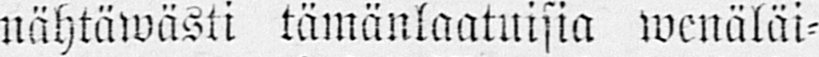nähtäwästi tämänlaatuisia wenäläi-
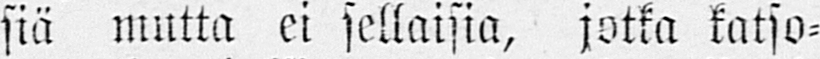siä mutta ei sellaisia, jotka katso-
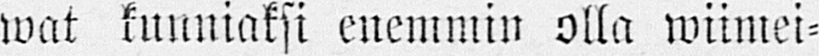wat kunniaksi enemmin olla wiimei-
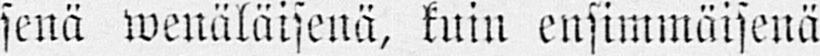senä wenäläisenä, kuin ensimmäisenä
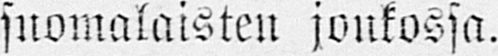suomalaisten j onkossa.
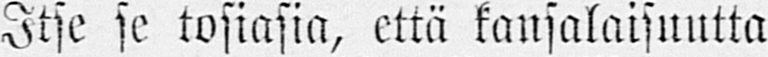Itse se tosiasia, että kansalaisuutta
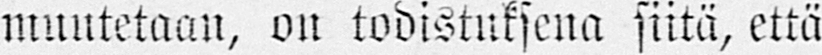muutetaan, on todistuksena siitä, että
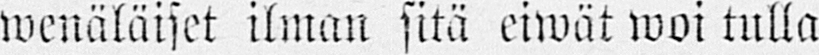wenäläiset ilman sitä eiwät woi tulla
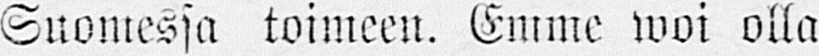Suomessa toimeen. Emme woi olla
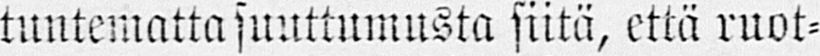tuntematta suuttumusta siitä, että ruot-
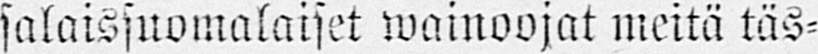salaissuomalaiset wainoojat meitä täs-
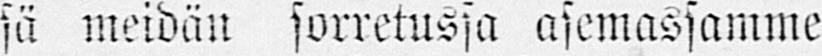sä meidän sorretussa asemassamme
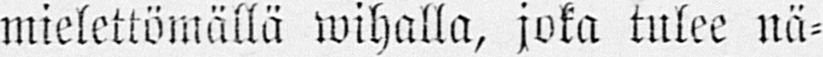mielettömällä wihalla, joka tulee nä-
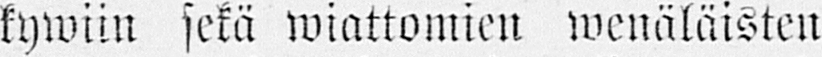kywiin sekä wiattomien wenäläisten
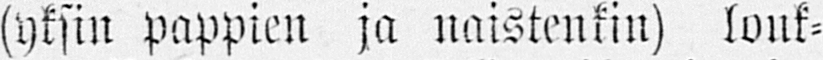(yksin pappien ja naistenkin) louk-
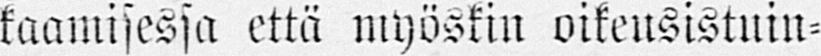kaamisessa että myöskin oikeusistuin-
